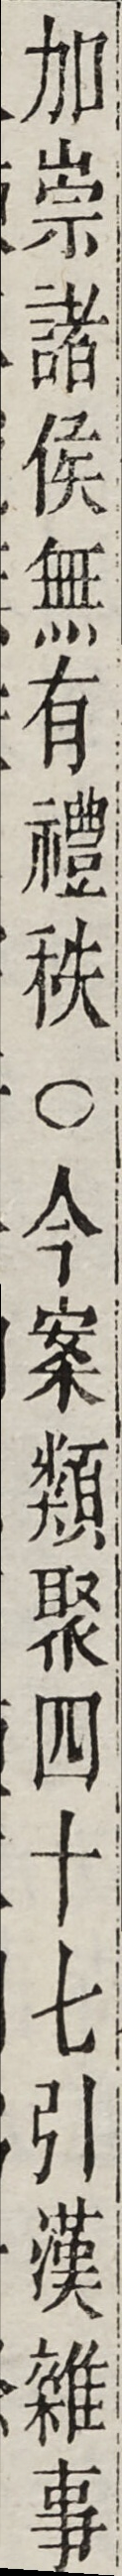加崇諸侯無有禮秩○今案類聚四十七引漢雜事
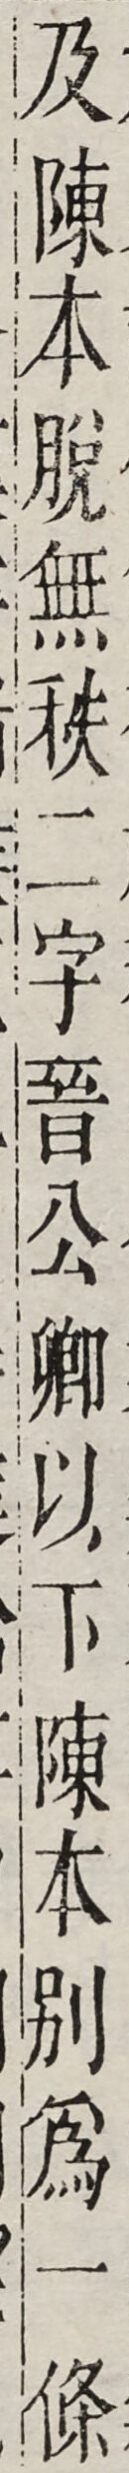及陳本脫無秩二字晉公卿以下陳本別為一條
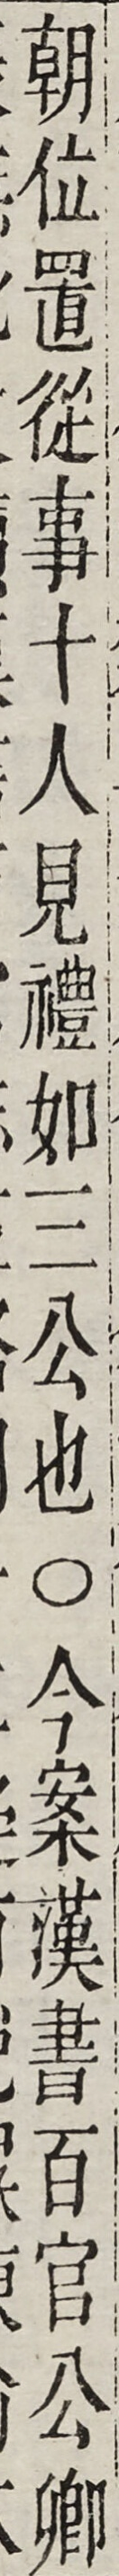朝位置從事十人見禮如三公也○今案漢書百官公卿
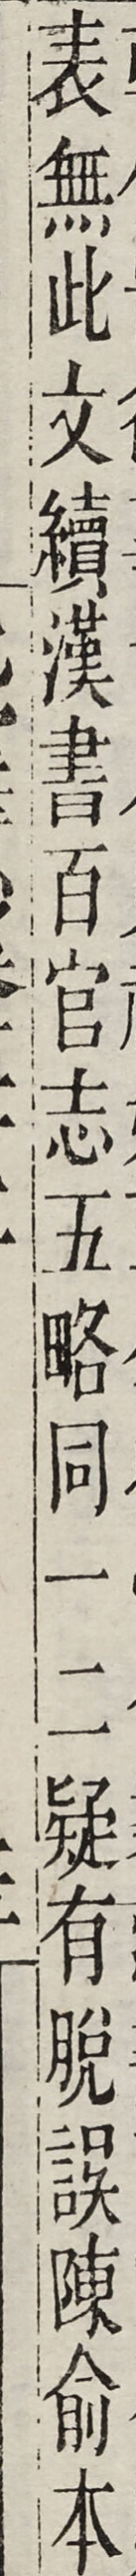表無此文續漢書百官志五略同一二疑有脫誤陳俞本
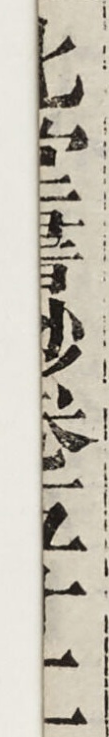北堂書鈔卷第五十二
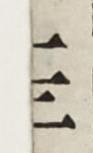十三
